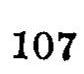107
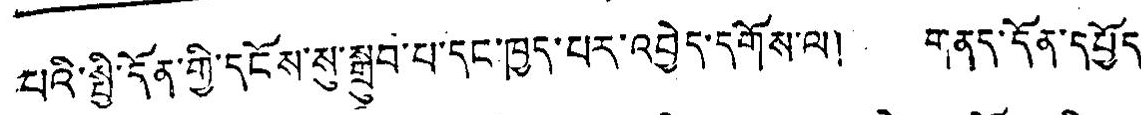པའི་སྤྱི་དོན་གྱི་དངོས་སུ་སྒྲུབ་པ་དང་ཁྱད་པར་འབྱེད་དགོས་ལ། གནད་དོན་དཔྱོད་
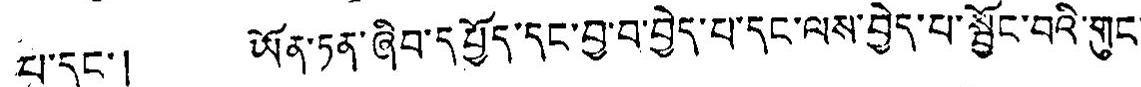པ་དང་། ཡོན་ཏན་ཞིབ་དཔྱོད་དང་བྱ་བ་བྱེད་པ་དང་ལས་བྱེད་པ་སྦྱོང་བའི་གུང་
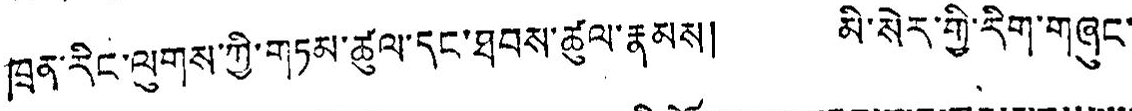ཁྲན་རིང་ལུགས་ཀྱི་གཏམ་ཚུལ་དང་ཐབས་ཚུལ་རྣམས། མི་སེར་གྱི་རིག་གཞུང་
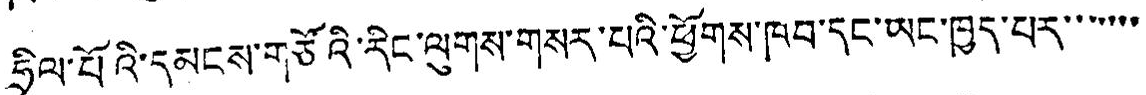ཧྲིལ་པོའི་དམངས་གཙོའི་རིང་ལུགས་གསར་པའི་ཕྱོགས་ཁབ་དང་ཡང་ཁྱད་པར་་་་་་་
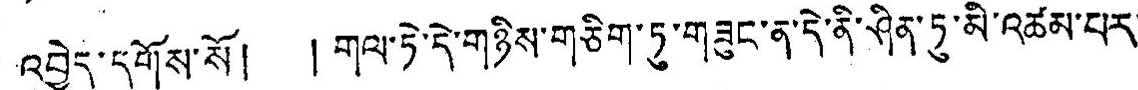འབྱེད་དགོས་སོ། །གལ་ཏེ་དེ་གཉིས་གཅིག་ཏུ་གཟུང་ན་དེ་ནི་ཤིན་ཏུ་མི་འཚམ་པར་
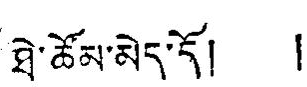ཐེ་ཚོམ་མེད་དོ། །
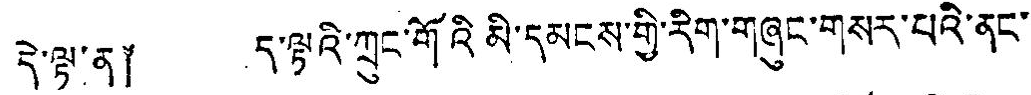དེ་ལྟ་ན༐ ད་ལྟའི་ཀྲུང་གོའི་མི་དམངས་གྱི་རིག་གཞུང་གསར་པའི་ནང་
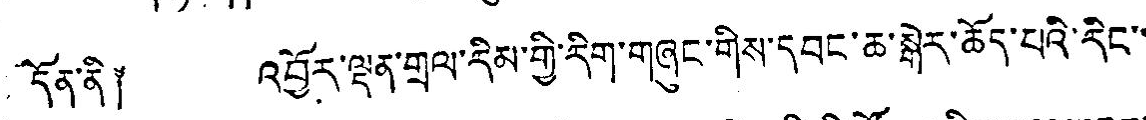དོན་ནི༐ འབྱོར་ལྡན་གྲལ་རིམ་གྱི་རིག་གཞུང་གིས་དབང་ཆ་སྒེར་ཆོད་པའི་རིང་་
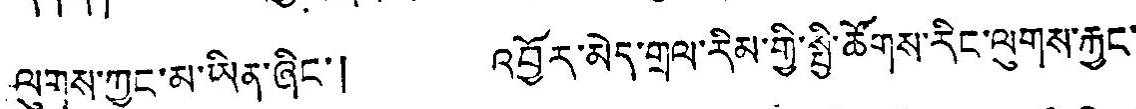ལུགས་ཀྱང་མ་ཡིན་ཞིང་། འབྱོར་མེད་གྲལ་རིམ་གྱི་སྤྱི་ཚོགས་རིང་ལུགས་རྐྱང་
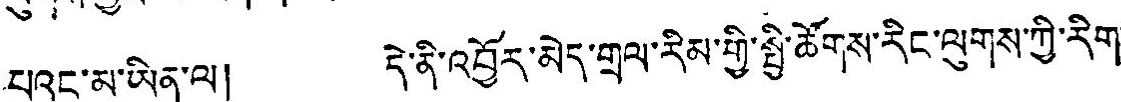པའང་མ་ཡིན་ལ། དེ་ནི་འབྱོར་མེད་གྲལ་རིམ་གྱི་སྤྱི་ཚོགས་རིང་ལུགས་ཀྱི་རིག་
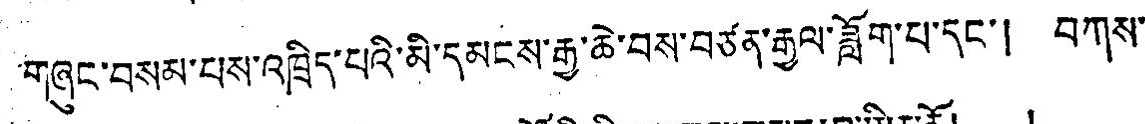གཞུང་བསམ་པས་འཁྲིད་པའི་མི་དམངས་རྒྱ་ཆེ་བས་བཙན་རྒྱལ་ཟློག་པ་དང་། བཀས་
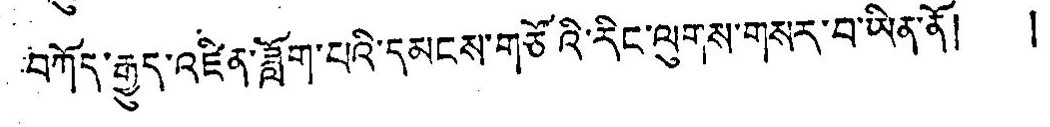བཀོད་རྒྱུད་འཛིན་ཟློག་པའི་དམངས་གཙོའི་རིང་ལུགས་གསར་བ་ཡིན་ནོ། །
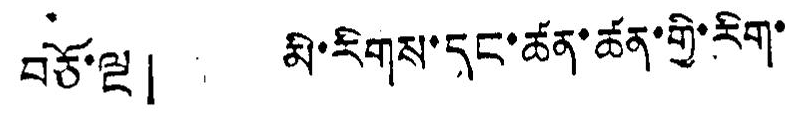བཅོ་ལྔ། མི་རིགས་དང་ཚན་ཚན་གྱི་རིག་
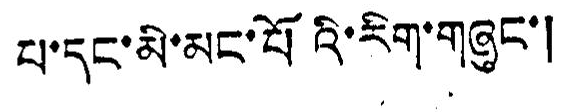པ་དང་མི་མང་པོའི་རིག་གཞུང་།
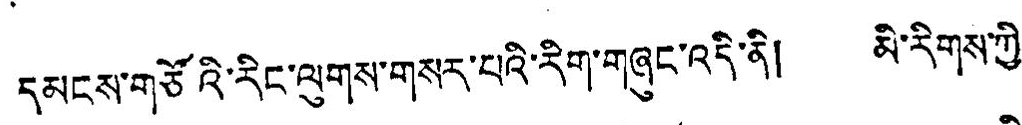དམངས་གཙོའི་རིང་ལུགས་གསར་པའི་རིག་གཞུང་འདི་ནི། མི་རིགས་ཀྱི་
